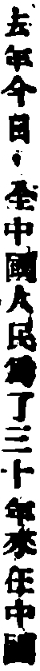去年今日，全中國人民爲了三十年來在中國
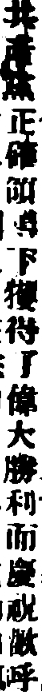共產黨正確領導下獲得了偉大勝利而慶祝歡呼
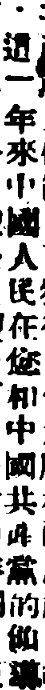，這一年來中國人民在您和中國共產黨的領導
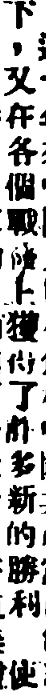下，又在各個戰綫上獲得了許多新的勝利，使
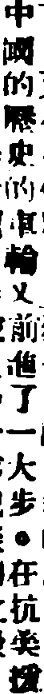中國的歷史的車輪又前進了一大步。在抗美援
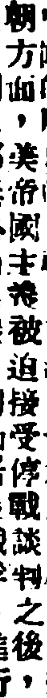朝方面，美帝國主義被迫接受停戰談判之後，
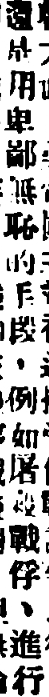還是用卑鄙無恥的手段，例如屠殺戰俘、進行
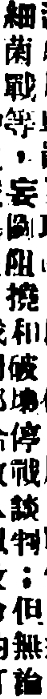細菌戰等，妄圖阻撓和破壞停戰談判；但無論
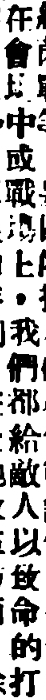在會場中或戰場上，我們都給敵人以致命的打
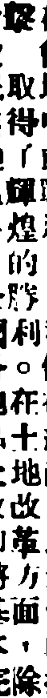擊，取得了輝煌的勝利。在土地改革方面，除
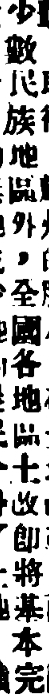少數民族地區外，全國各地區土改卽將基本完
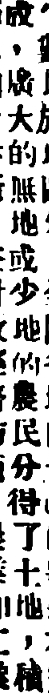成，廣大的無地或少地的農民分得了土地，積
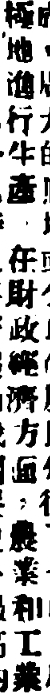極地進行生產。在財政經濟方面，農業和工業
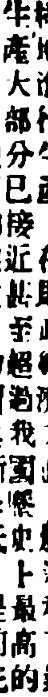生產大部分已接近甚至超過我國歷史上最高的
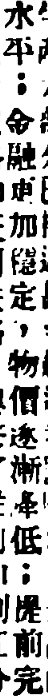水平；金融更加穩定，物價逐漸降低；提前完
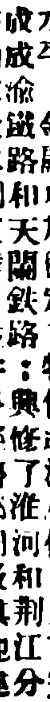成成渝鐵路和天蘭鐵路；興修了淮河和荊江分
